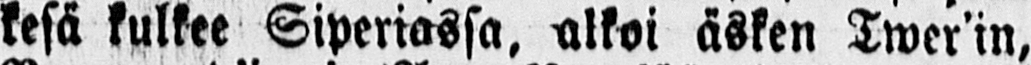kesä kulkee Siperiassa, alkoi äsken Twer'in,
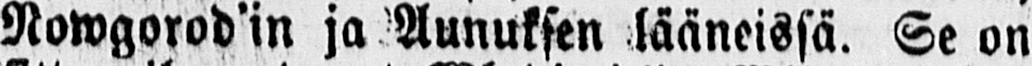Nowgorod'in ja Aunuksen lääneissä. Se on
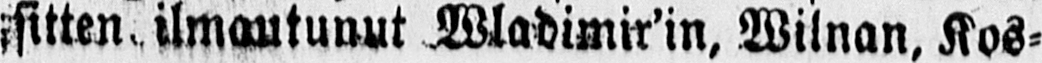sitten ilmautunut Wladimir'in, Wilnan, Kos-
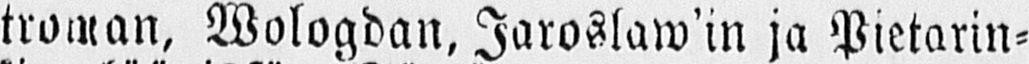troman, Wologdan, Jaroslaw'in ja Pietarin-
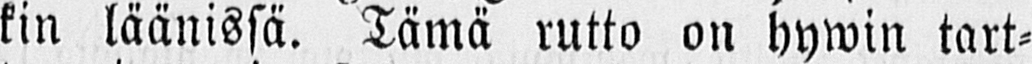kin läänissä. Tämä rutto on hywin tart-
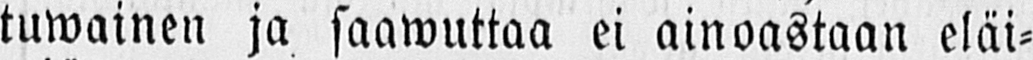tuwainen ja saawuttaa ei ainoastaan eläi-
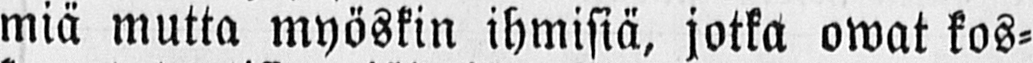miä mutta myöskin ihmisiä, jotka owat kos-
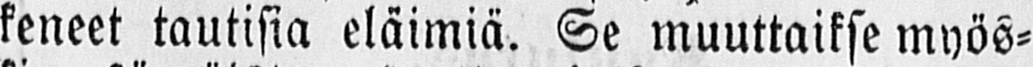keneet tautisia eläimiä. Se muuttaikse myös-
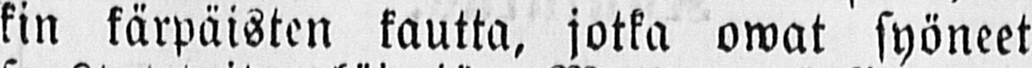kin kärpäisten kautta, jotka owat syöneet
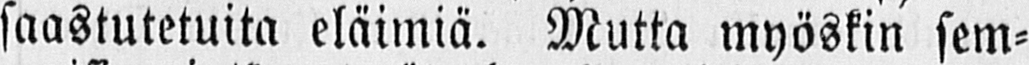saastutetuita eläimiä. Mutta myöskin sem-
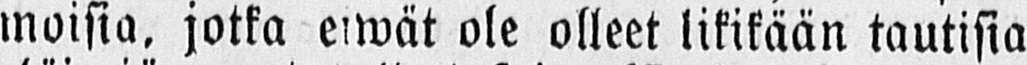moisia, jotka eiwät ole olleet likikään tautisia
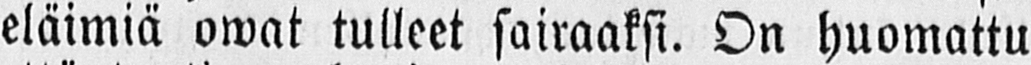eläimiä owat tulleet sairaaksi. On huomattu
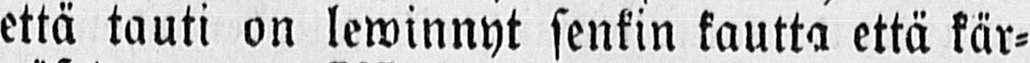että tauti on lewinnyt senkin kautta että kär-
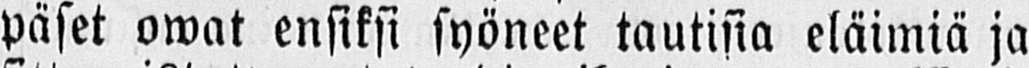päset owat ensiksi syöneet tautisia eläimiä ja
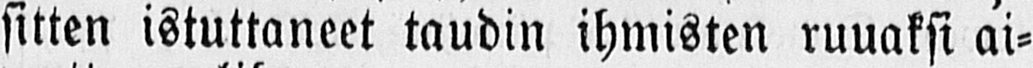sitten istuttaneet taudin ihmisten ruuaksi ai-
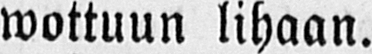wottuun lihaan.
